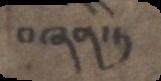བཞིན་ཏེ
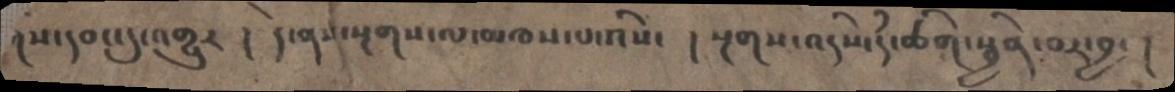གས་དབང་དུ་འགྱུར  །  དེ་ནས་སྔགས་ལ་མཁས་པ་འིས་  ། སྔགས་འདིས་དཾ་ཚིག་སྦྱིན་བར་བྱ་ །
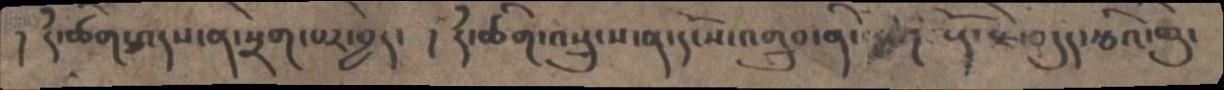།  དཾ་ཚིག་འདས་ན་སྲེག་པར་བྱེད་  ། དཾ་ཚིག་བསྲུངས་ན་དངོས་འགྲུབ་ནི་  །  རྡོ་རྗེ་བདུད་རྩིའ་ཆུ་
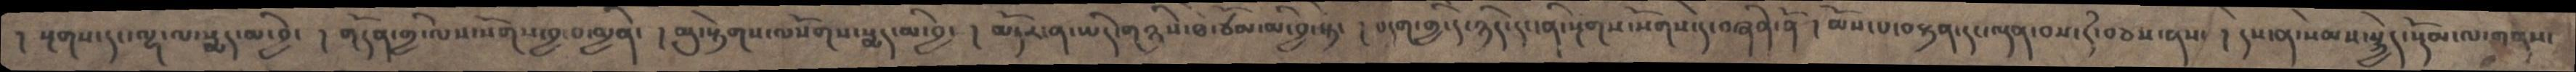། སྔགས་དང་ལྷ་ལ་སྨད་མ་བྱེ་ ། གདོན་གྱི་ལས་སོགས་བྱ་བ་མྱིན་ ། མུ་སྟེགས་ལསོགས་སྨད་མི་བྱ་ ། མདོར་ན་ཡིད་གཉིས་ཐེ་ཙོམ་མི་བྱ་སྟེ་ ། བདག་གྱི་དེ་ཉིད་དང་ནི་སྔགས་སོགས་དེ་བཞིན་ནོ ། མོས་པ་བསྟན་དང་ལྡན་བས་དཾ་བཅས་ནས་ ། དེས་ན་སེམས་སྐྱེད་སྡོམ་ལ་གནས་
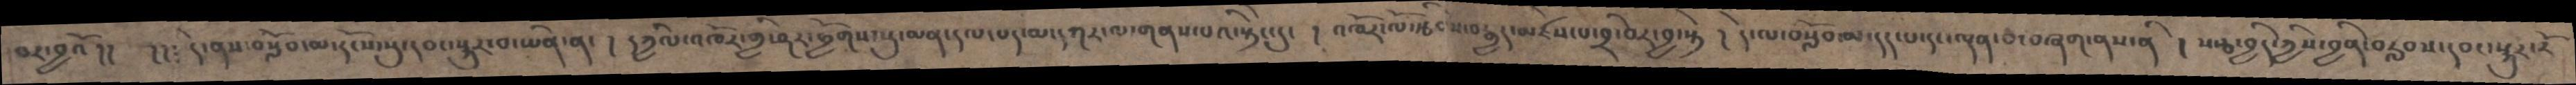བར་བྱའོ།།  །། དེ་ནས་བསློབ་མ་དངོས་སུ་དབང་སྐུར་བ་ཡིན་ན་ ། དཀྱིལ་འཁོར་གྱི་ཤར་ཕྱོགས་སུ་མན་དལ་པད་མ་དཀར་ལ་གནས་པའི་སྡེང་དུ་  ། འཁོར་ལོ་རྩིབས་བརྒྱད་མཛེས་པ་བྲི་བར་བྱ་སྟེ ། དེ་ལ་བསློབ་མ་དད་པ་དང་ལྡན་པ་བཞག་ནས་ནི ། སརྩ་བྱིད་ཀྱིས་བྱིན་བརླབས་དབང་སྐུར་རོ
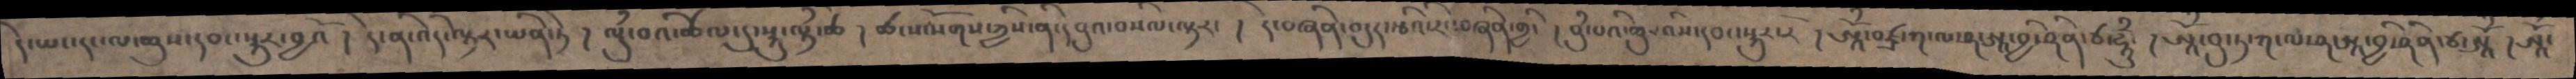དེ་ཡང་དང་ལ་ཆུས་དབང་སྐུར་བྱའོ ། དེ་ནི་འདི་ལྟར་ཡིན་ཏེ ། ལུཾ་བའི་ཚལ་དུ་སྐུ་ལྟཾ་ཚེ ། ཚངས་སོགས་ཀྱིས་ནི་དབུའ་བསིལ་ལྟར་ ། དེ་བཞིན་བདུད་རྩིའི་རང་བཞིན་གྱི་ ། བུཾ་པའི་ཆུ་འིས་དབང་སྐུར་རོ ། ཨཱོྃ་བཛྲ་ཀ་ལ་ཤ་ཨཱ་བྱི་ཤིན་ཙ་ཧཱུྃ་ ། ཨཱོྃ་བུ་ཏ་ཀ་ལ་ཤ་ཨཱ་བྱི་ཤིན་ཙ་ཨཱོྃ ། ཨཱོྃ་
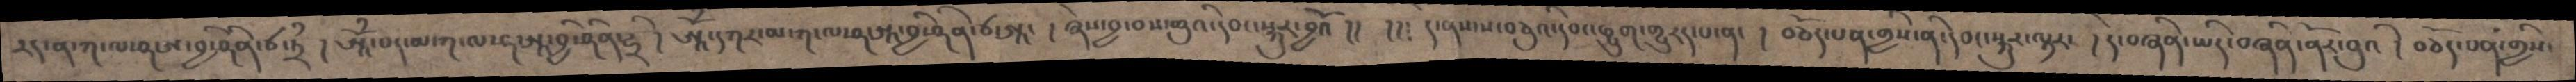རད་ན་ཀ་ལ་ཤ་ཨ་བྱི་ཤིན་ཙ་ཏྲཾ ། ཨཱོྃ་པད་མ་ཀ་ལ་ཤ་ཨཱ་བྱི་ཤིན་ཧྲི ། ཨཱོྃ་དཀར་མ་ཀ་ལ་ཤ་ཨཱ་བྱི་ཤིན་ཙ་ཨཱ་ ། ཞེས་བྱ་བས་ཆུའི་དབང་སྐུར་བྱའོ །།  །། དེ་ནས་ས་བཅུའི་དབང་ཕྱུག་གྱུརད་པ་ན་ །  བཅོད་པན་གྱིས་ནི་དབང་སྐུར་ལྟར་ ། དེ་བཞིན་ཡིད་བཞིན་ནོར་བུའི ། བཅོད་པན་གྱིས་
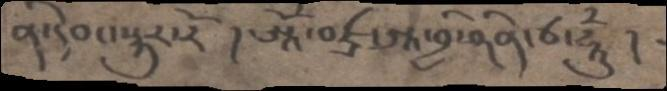ནི་དབང་སྐུར་རོ  ། ཨཱོྃ་བཛྲ་ཨཱ་བྱི་ཤིན་ཙ་ཧཱུྃ །
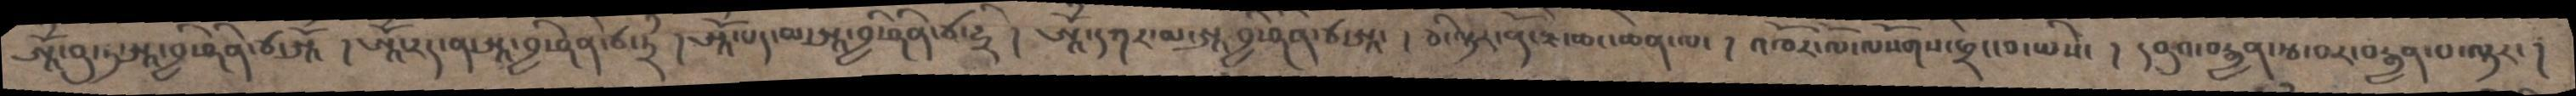ཨཱོྃ་བུ་ཏ་ཨཱ་བྱི་ཤིན་ཙ་ཨཱོྃ ། ཨཱོྃ་རད་ན་ཨཱ་བྱི་ཤིན་ཙ་ཏྲི ། ཨཱོྃ་པད་མ་ཨཱ་བྱི་ཤིན་ཙ་ཧྲི ། ཨཱོྃ་དཀར་མ་ཨཱ་བྱི་ཤིན་ཙ་ཨཱ ། ཅི་ལྟར་རྡོ་རྗེ་ཆང་ཆེན་ལ་ ། འཁོར་ལོ་ལསོགས་ཕྲེང་བ་ཡིས་ ། དབུའ་བརྒྱན་རྩ་བར་བརྒྱན་པ་ལྟར་ །
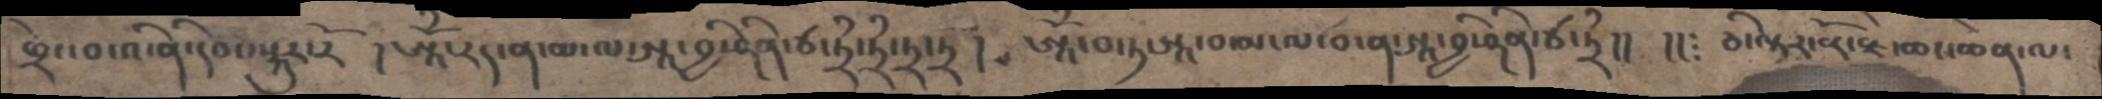ཕྲེང་བ་འི་ནི་དབང་སྐུར་རོ ། ཨཱོྃ་རད་ན་མ་ལ་ཨཱ་བྱི་ཤིན་ཙ་ཏྲཾ་ཏྲཾ་ཏྲ་ཏྲ །  ཨཱོྃ་བ་ཏ་ཨཱ་བ་མ་ལ་བ་ན་ཨཱ་བྱི་ཤིན་ཙ་ཏྲཾ།།  །། ཅི་ལྟར་རྡོ་རྗེ་ཆང་ཆེན་ལ་
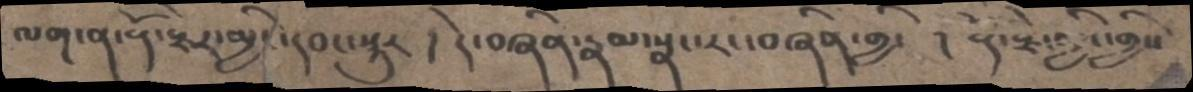ལག་ན་རྡོ་རྗེར་མྱིང་དབང་སྐུར  །  དེ་བཞིན་རྣམ་སྣང་རང་བཞིན་གྱི་  ། རྡོ་རྗེ་མྱི་གྱིས
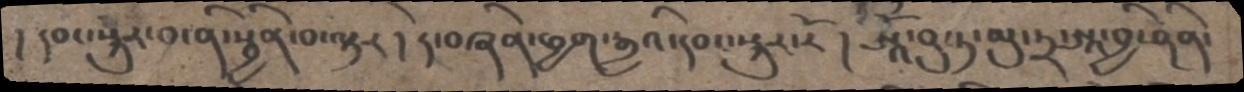། དབང་སྐུར་བ་ནི་སྦྱིན་བ་ལྟར། དེ་བཞིན་ཕྱག་རྒྱའི་དབང་སྐུར་རོ་། ཨཱོྃ་བུ་ཏ་མུ་ཏྲ་ཨཱ་བྱི་ཥིན་
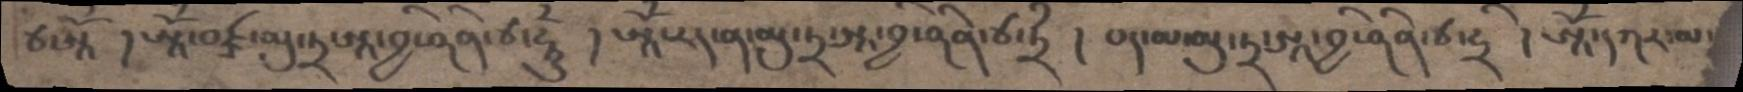ཙ་ཨཱོྃ། ཨཱོྃ་བཛྲ་མུ་ཏྲ་ཨཱ་བྱི་ཥིན་ཙ་ཧཱུྃ། ཨཱོྃ་རད་ན་མུ་ཏྲ་ཨཱ་བྱི་ཥིན་ཙ་ཏྲཾ། པད་མ་མུ་ཏྲ་ཨཱ་བྱི་ཥིན་ཙ་ཧྲི། ཨཱོྃ་དཀར་མ་
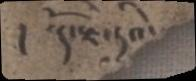། རྡོ་རྗེ་ཏའི་
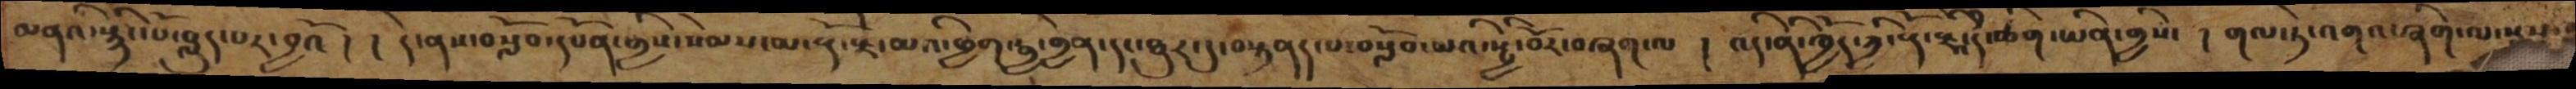མནའི་སྙིང་པོ་བླུད་པར་བྱའོ ། །དེ་ནས་བསློབ་དཔོན་གྱིས་སེམས་མ་རྡོ་རྗེ་མའི་ཕྱག་རྒྱ་གྱེན་དང་ཐུར་དུ་བསྟནད་པ་བསློབ་མའི་སྤྱི་བོར་བཞག་ལ ། འདི་ནི་ཁྱོད་ཀྱི་རྡོ་རྗེ་དཾ་ཚིག་ཡིན་གྱིས་ ། གལ་ཏེ་འགའ་ཞིག་ལ་སྲས་
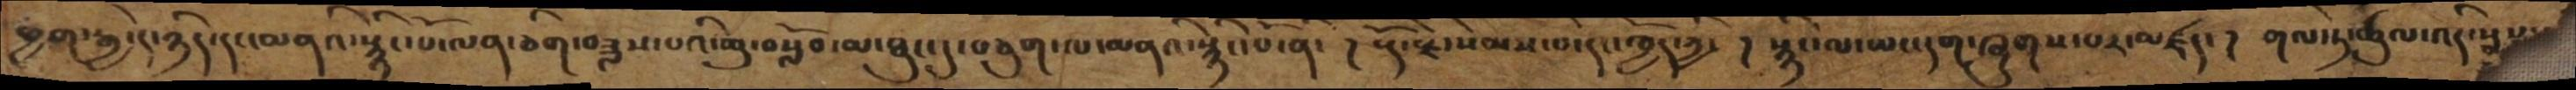ཕྱག་རྒྱ་དེ་ཉིད་དང་མནའི་སྙིང་པོ་ལན་ཅིག་བཟླས་པའི་ཆུ་བསློབ་མ་ཐུང་དུ་བཅུག་ལ་མནའ་སྙིང་པོ་ནི་། རྡོ་རྗེ་སེམས་བ་རང་ཁྱོད་ཀྱི་། སྙིང་ལ་ཡང་དག་ཞུགས་པར་མཛད་།གལ་ཏེ་ཚུལ་འདི་སྣང་
